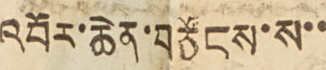འབོར་ཆེན་བཙོངས་ས་་
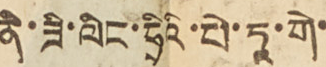ནི་ཟི་ལིང་ཧྲིའི་པེ་ཏཱ་གེ་
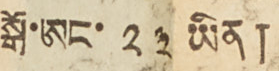སྒོ་ཨང་ ༢༣ ཡིན།
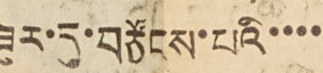ཟུར་དུ་བཙོངས་པའི་་་་
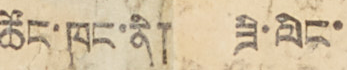ཚོང་ཁང་ནི། ཟི་ལིང་
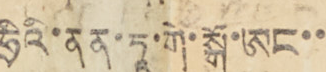ཧྲིའི་ནན་ཏཱ་གེ་སྒོ་ཨང་་
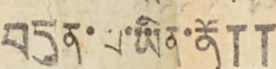བདུན་པ་ཡིན་ནོ༎
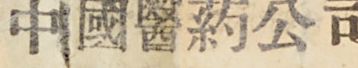中國醫葯公司
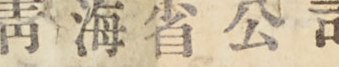青 海 省 公 司
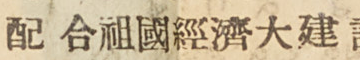配 合祖國經濟大建設
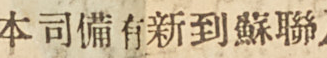本司備有新到蘇聯及
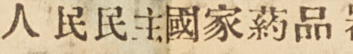人民民主國家葯品器
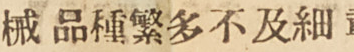械 品種繁多不及細載
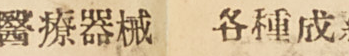醫療器械 各種成葯
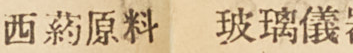西葯原料 玻璃儀器
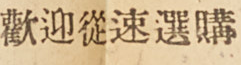歡迎從速選購
